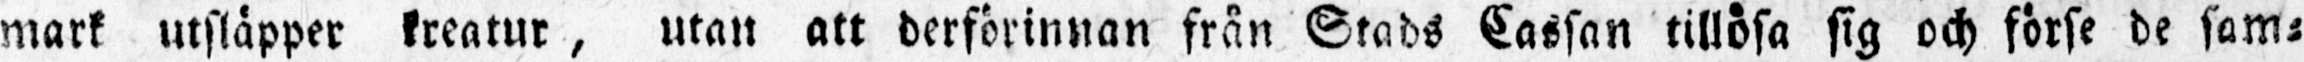mark utsläpper kreatur, utan att derförinnan från Stads Cassan tillösa sig och förse de sam-
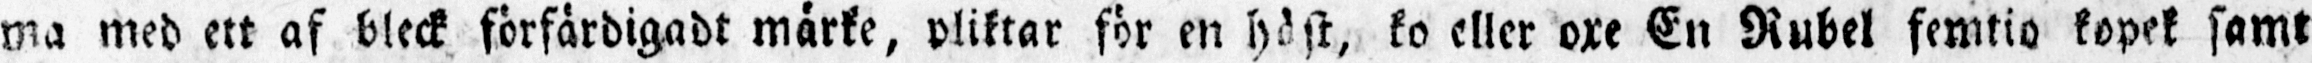ma med ett af bleck förfärdigadt märke, pliktar för en häst, ko eller oxe En Rubel femtio kopek samt
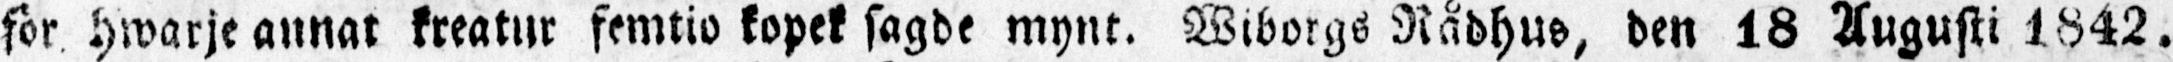för hwarje annat kreatur femtio kopek sagde mynt. Wiborgs Rådhus, den 18 Augusti 1842.
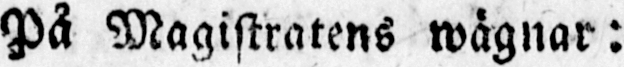På Magistratens wägnar:
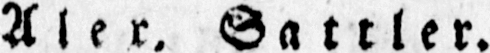A l e x. Sa t t ler.
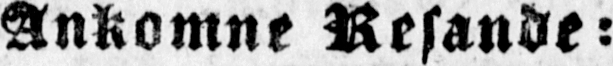Ankomne Resande:
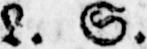L. S.
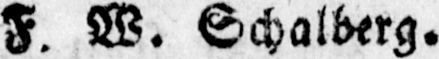F. W. Schalberg.
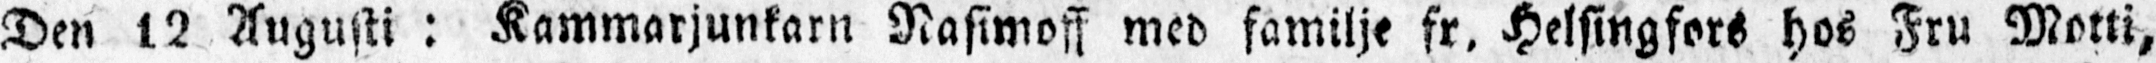Den 12 Augusti : Kammarjunkarn Nasimoff med familje fr. Helsingfors hos Fru Motti,
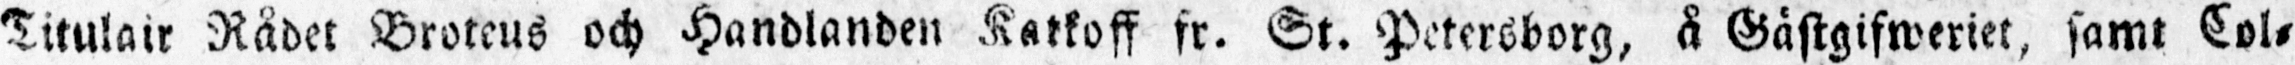Titulair Rådet Broteus och Handlanden Katkoff fr. St. Petersborg, å Gästgifweriet, samt Col-
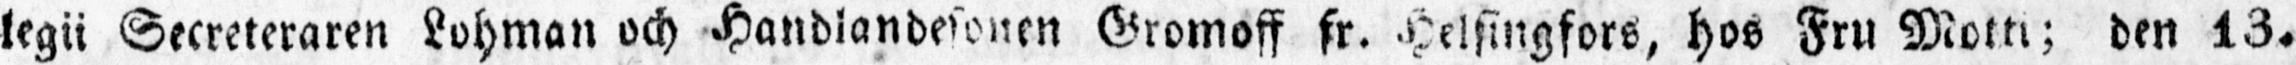legii Secreteraren Lohman och Handlandesonen Gromoff fr. Helsingfors, hos Fru Motti; den 13.
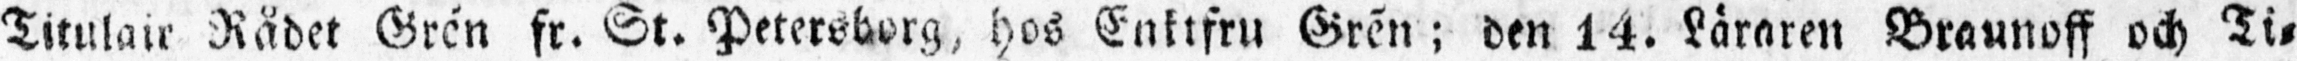Titulair Rådet Grén fr. St. Petersborg, hos Enktfru Grén; den 14. Läraren Braunoff och Ti-
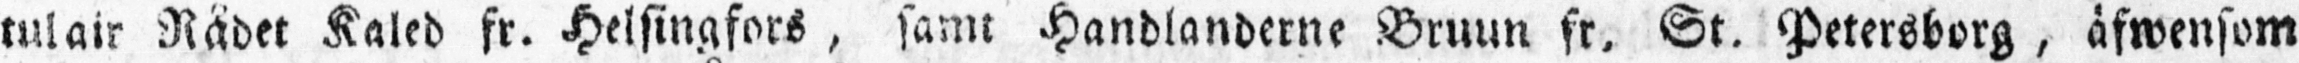tulair Rådet Kaled fr. Helsingfors, samt Handlanderne Bruun fr. St. Petersborg, äfwensom
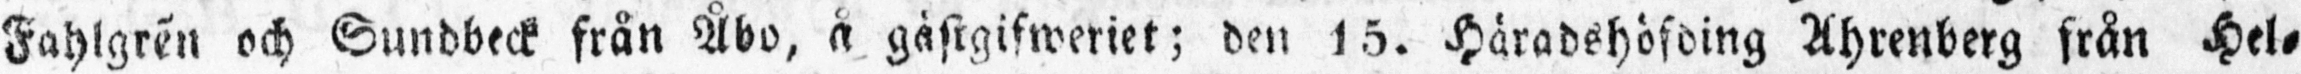Fahlgrén och Sundbeck från Åbo, å gastgifweriet; den 15. Häradshöfding Ahrenberg från Hel-
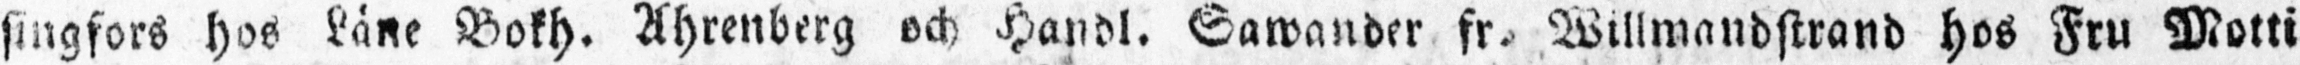singfors hos Läne Bokh. Ahrenberg och Handl. Sawander fr. Willmandstrand hos Fru Motti
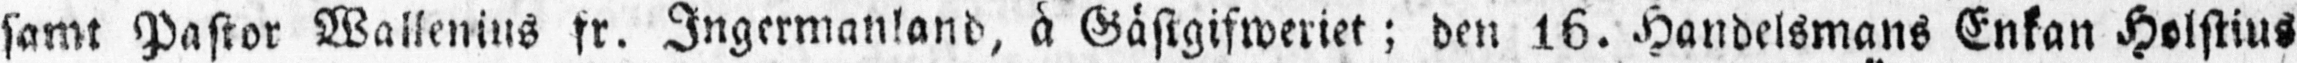samt Pastor Wallenius fr. Ingermanland, å Gästgifweriet; den 16. Handelsmans Enkan Holstius
